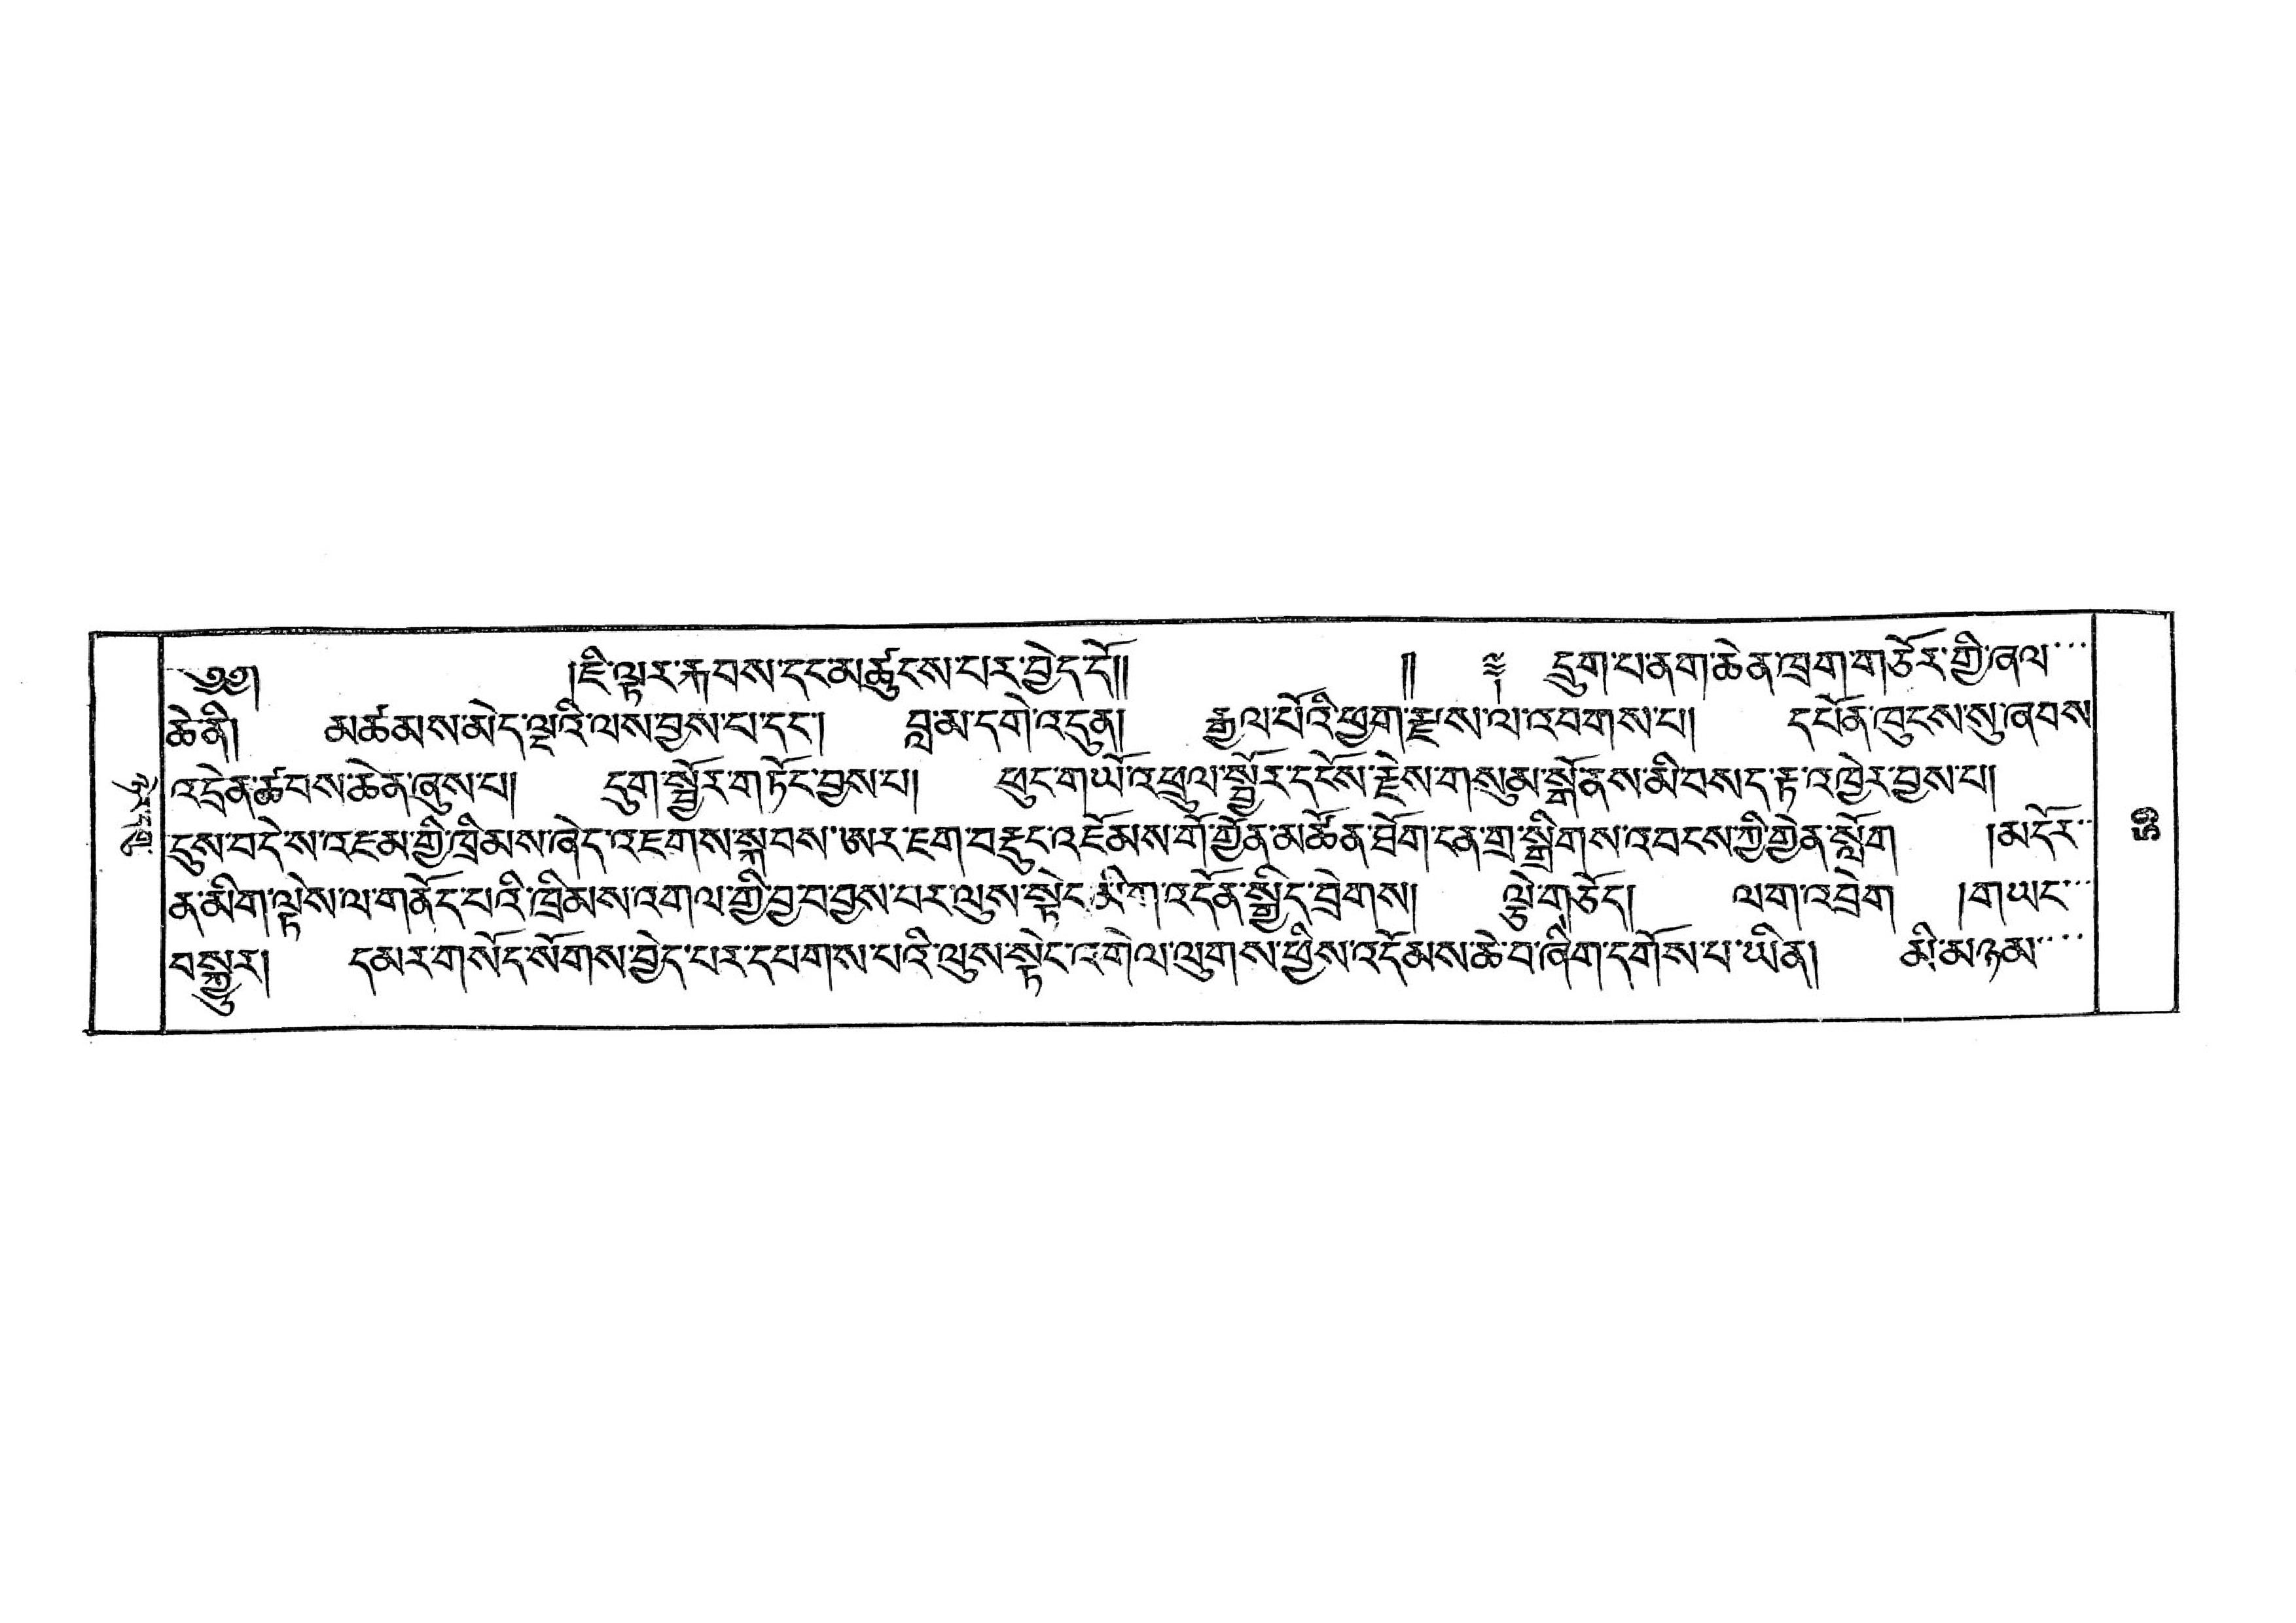ཉེར་དགུ་
༄༅།  །ཇི་ལྟར་རྐབས་དང་མཚུངས་པར་བྱེད་དོ།།  །། ༈ དྲུག་པ་ནག་ཆེན་ཁྲག་གཅོར་གྱི་ཞལ་་་
ཆེ་ནི། མཚམས་མེད་ལྔའི་ལས་བྱས་པ་དང་། བླ་མ་དགེ་འདུན། རྒྱལ་པོའི་ཕྱུག་རྫས་ལ་འབགས་པ། དཔོན་ཁུངས་སུ་ཞབས་
འདྲེན་ཚབས་ཆེན་ཞུས་པ། དུག་སྦྱོར་གཏོང་བྱས་པ། ཕུང་གཡོ་འཕྲུལ་སྦྱོར་དངོས་རྗེས་གསུམ་སྒོ་ནས་མི་བསད་རྟ་འཁྱེར་བྱས་པ།
དུས་བདེ་ས་འཇམ་གྱི་ཁྲིམས་ཞེད་འཇགས་སྐབས་ཨར་ཇག་བརྡུང་འཇོམས་གི་རྒྱོན་མཚོན་ཐོག་ངན་གྲ་སྒྲིགས་འབངས་ཀྱི་གྱེན་སློག །མདོར་་
ན་མིག་ལྟེས་ལ་གནོད་པའི་ཁྲིམས་འགལ་གྱི་བྱ་བ་བྱས་པར་ལུས་སྟེང་མིག་འདོན་སྒྱིད་བྲེགས། ལྕེ་གཅོད། ལག་འབྲེག །གཡང་་་
བསྐྱུར། དམར་གསོད་སོགས་བྱེད་པར་དཔགས་པའི་ལུས་སྟེང་འགེལ་ལུགས་ཕྱིས་འདོམས་ཆེ་བ་ཞིག་དགོས་པ་ཡིན། མི་མཉམ་་་་
